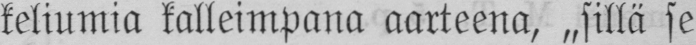keliumia kalleimpana aarteena, „sillä se
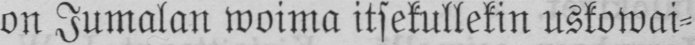on Jumalan woima itsekullekin uskowai-
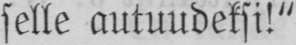selle autuudeksi!"
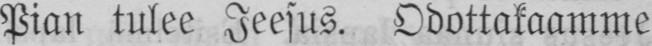Pian tulee Jeesus. Odottakaamme
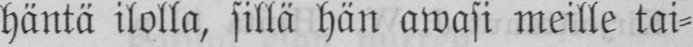häntä ilolla, sillä hän awasi meille tai-
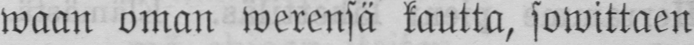waan oman werensä kautta, sowittaen
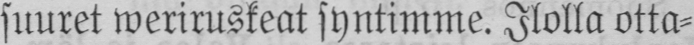suuret weriruskeat syntimme. Ilolla otta-
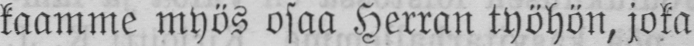kaamme myös osaa Herran työhön, joka
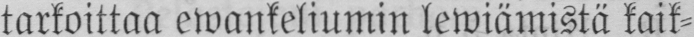tarkoittaa ewankeliumin lewiämistä kaik-
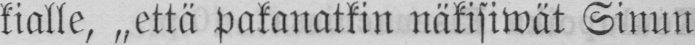kialle, „että pakanatkin näkisiwät Sinun
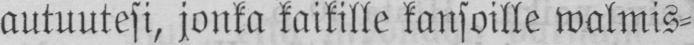autuutesi, jonka kaikille kansoille walmis-
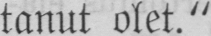tanut olet."
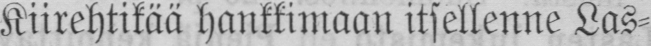Kiirehtikää hankkimaan itsellenne Las-
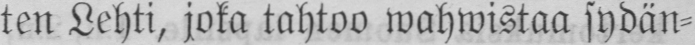ten Lehti, joka tahtoo wahwistaa sydän-
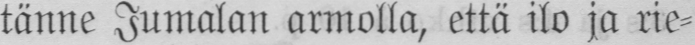tänne Jumalan armolla, että ilo ja rie-
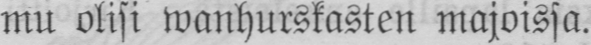mu olisi wanhurskasten majoissa.
